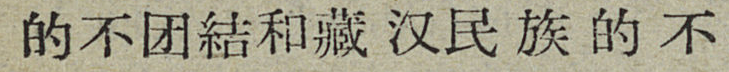的不团結和藏汉民族的不
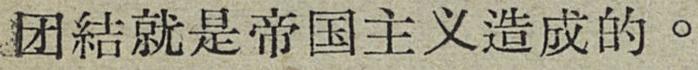团結就是帝国主义造成的。
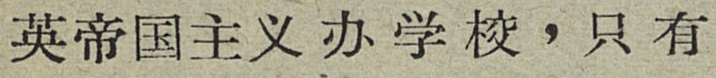英帝国主义办学校，只 有
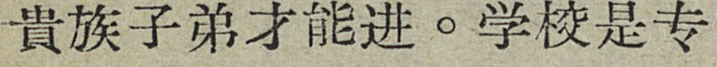貴族子弟才能进。学校是专
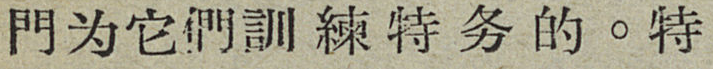門为它們訓練特务的。特
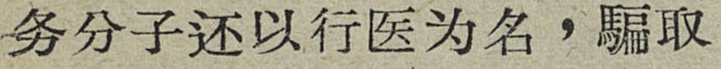务分子还以行医为名，騙取
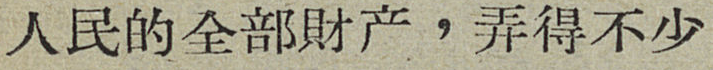人民的全部財产，弄得不少
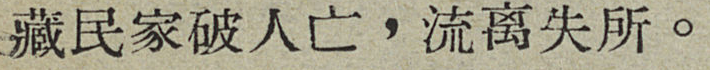藏民家破人亡，流离失所。
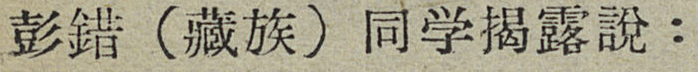彭錯（藏族）同学揭露說：
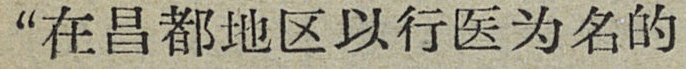“在昌都地区以行医为名的
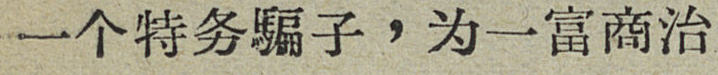一个特务騙子，为一富商治
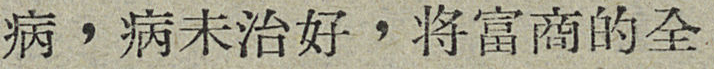病，病未治好，将富商的全
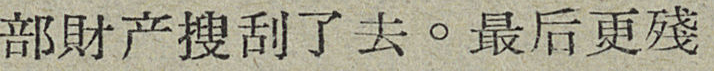部財产搜刮了去。最后更殘
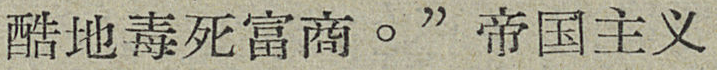酷地毒死富商。”帝国主义
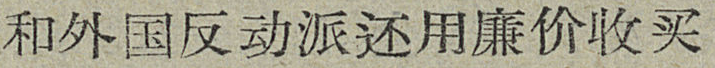和外国反动派还用廉价收买
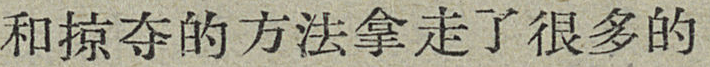和掠夺的方法拿走了很多的
